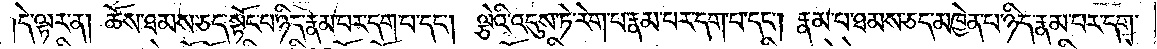དེ་ལྟར་ན། ཆོས་ཐམས་ཅད་སྟོང་པ་ཉིད་རྣམ་པར་དག་པ་དང༌། ལྕེའི་འདུས་ཏེ་རེག་པ་རྣམ་པར་དག་པ་དང༌། རྣམ་པ་ཐམས་ཅད་མཁྱེན་པ་ཉིད་རྣམ་པར་དག་
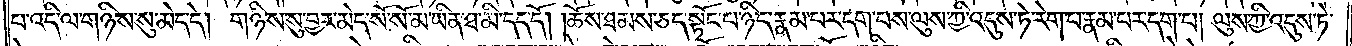པ་འདི་ལ་གཉིས་སུ་མེད་དེ། གཉིས་སུ་བྱར་མེད་སོ་སོ་མ་ཡིན་ཐ་མི་དད་དོ། །ཆོས་ཐམས་ཅད་སྟོང་པ་ཉིད་རྣམ་པར་དག་པས་ལུས་ཀྱི་འདུས་ཏེ་རེག་པ་རྣམ་པར་དག་པ། ལུས་ཀྱི་འདུས་ཏེ་
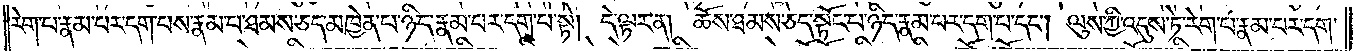རེག་པ་རྣམ་པར་དག་པས་རྣམ་པ་ཐམས་ཅད་མཁྱེན་པ་ཉིད་རྣམ་པར་དག་པ་སྟེ། དེ་ལྟར་ན། ཆོས་ཐམས་ཅད་སྟོང་པ་ཉིད་རྣམ་པར་དག་པ་དང༌། ལུས་ཀྱི་འདུས་ཏེ་རེག་པ་རྣམ་པར་དག་
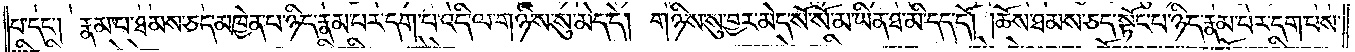པ་དང༌། རྣམ་པ་ཐམས་ཅད་མཁྱེན་པ་ཉིད་རྣམ་པར་དག་པ་འདི་ལ་གཉིས་སུ་མེད་དེ། གཉིས་སུ་བྱར་མེད་སོ་སོ་མ་ཡིན་ཐ་མི་དད་དོ། །ཆོས་ཐམས་ཅད་སྟོང་པ་ཉིད་རྣམ་པར་དག་པས་
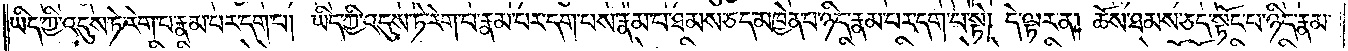ཡིད་ཀྱི་འདུས་ཏེ་རེག་པ་རྣམ་པར་དག་པ། ཡིད་ཀྱི་འདུས་ཏེ་རེག་པ་རྣམ་པར་དག་པས་རྣམ་པ་ཐམས་ཅད་མཁྱེན་པ་ཉིད་རྣམ་པར་དག་པ་སྟེ། དེ་ལྟར་ན། ཆོས་ཐམས་ཅད་སྟོང་པ་ཉིད་རྣམ་
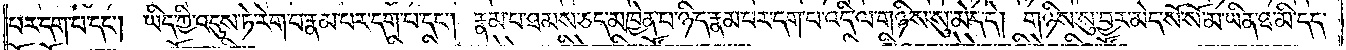པར་དག་པ་དང༌། ཡིད་ཀྱི་འདུས་ཏེ་རེག་པ་རྣམ་པར་དག་པ་དང༌། རྣམ་པ་ཐམས་ཅད་མཁྱེན་པ་ཉིད་རྣམ་པར་དག་པ་འདི་ལ་གཉིས་སུ་མེད་དེ། གཉིས་སུ་བྱར་མེད་སོ་སོ་མ་ཡིན་ཐ་མི་དད་
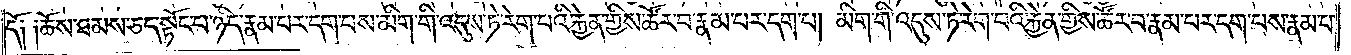དོ༑ ༑ཆོས་ཐམས་ཅད་སྟོང་པ་ཉིད་རྣམ་པར་དག་པས་མིག་གི་འདུས་ཏེ་རེག་པའི་རྐྱེན་གྱིས་ཚོར་བ་རྣམ་པར་དག་པ། མིག་གི་འདུས་ཏེ་རེག་པའི་རྐྱེན་གྱིས་ཚོར་བ་རྣམ་པར་དག་པས་རྣམ་པ་
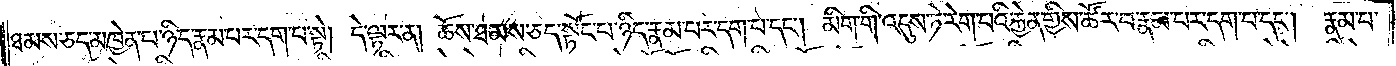ཐམས་ཅད་མཁྱེན་པ་ཉིད་རྣམ་པར་དག་པ་སྟེ། དེ་ལྟར་ན། ཆོས་ཐམས་ཅད་སྟོང་པ་ཉིད་རྣམ་པར་དག་པ་དང༌། མིག་གི་འདུས་ཏེ་རེག་པའི་རྐྱེན་གྱིས་ཚོར་བ་རྣམ་པར་དག་པ་དང༌། རྣམ་པ་
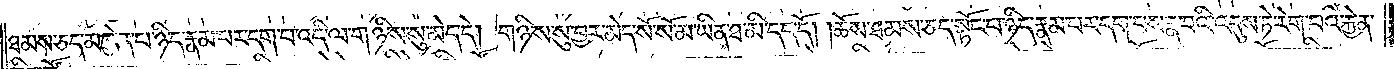ཐམས་ཅད་མཁྱེན་པ་ཉིད་རྣམ་པར་དག་པ་འདི་ལ་གཉིས་སུ་མེད་དེ། གཉིས་སུ་བྱར་མེད་སོ་སོ་མ་ཡིན་ཐ་མི་དད་དོ། །ཆོས་ཐམས་ཅད་སྟོང་པ་ཉིད་རྣམ་པར་དག་པས་རྣ་བའི་འདུས་ཏེ་རེག་པའི་རྐྱེན་
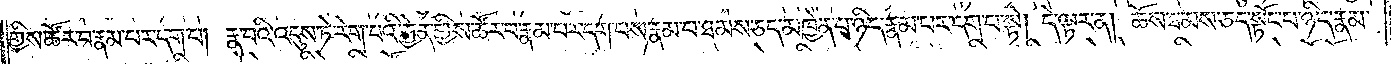གྱིས་ཚོར་བ་རྣམ་པར་དག་པ། རྣ་བའི་འདུས་ཏེ་རེག་པའི་རྐྱེན་གྱིས་ཚོར་བ་རྣམ་པར་དག་པས་རྣམ་པ་ཐམས་ཅད་མཁྱེན་པ་ཉིད་རྣམ་པར་དག་པ་སྟེ། དེ་ལྟར་ན། ཆོས་ཐམས་ཅད་སྟོང་པ་ཉིད་རྣམ་
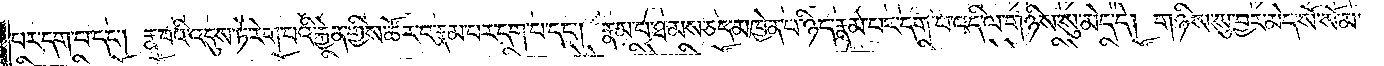པར་དག་པ་དང༌། རྣ་བའི་འདུས་ཏེ་རེག་པའི་རྐྱེན་གྱིས་ཚོར་བ་རྣམ་པར་དག་པ་དང༌། རྣམ་པ་ཐམས་ཅད་མཁྱེན་པ་ཉིད་རྣམ་པར་དག་པ་འདི་ལ་གཉིས་སུ་མེད་དེ། གཉིས་སུ་བྱར་མེད་སོ་སོ་མ་
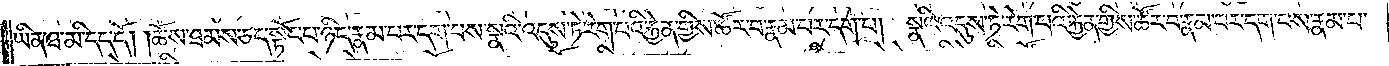ཡིན་ཐ་མི་དད་དོ། །ཆོས་ཐམས་ཅད་སྟོང་པ་ཉིད་རྣམ་པར་དག་པས་སྣའི་འདུས་ཏེ་རེག་པའི་རྐྱེན་གྱིས་ཚོར་བ་རྣམ་པར་དག་པ། སྣའི་འདུས་ཏེ་རེག་པའི་རྐྱེན་གྱིས་ཚོར་བ་རྣམ་པར་དག་པས་རྣམ་པ་
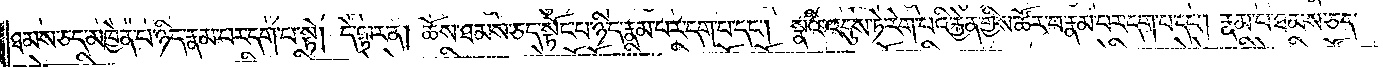ཐམས་ཅད་མཁྱེན་པ་ཉིད་རྣམ་པར་དག་པ་སྟེ། དེ་ལྟར་ན། ཆོས་ཐམས་ཅད་སྟོང་པ་ཉིད་རྣམ་པར་དག་པ་དང༌། སྣའི་འདུས་ཏེ་རེག་པའི་རྐྱེན་གྱིས་ཚོར་བ་རྣམ་པར་དག་པ་དང༌། རྣམ་པ་ཐམས་ཅད་
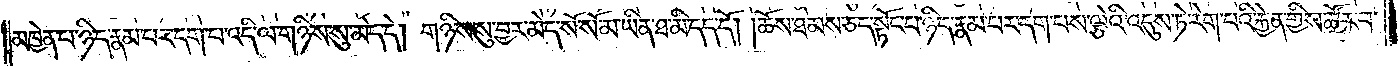མཁྱེན་པ་ཉིད་རྣམ་པར་དག་པ་འདི་ལ་གཉིས་སུ་མེད་དེ། གཉིས་སུ་བྱར་མེད་སོ་སོ་མ་ཡིན་ཐ་མི་དད་དོ། །ཆོས་ཐམས་ཅད་སྟོང་པ་ཉིད་རྣམ་པར་དག་པས་ལྕེའི་འདུས་ཏེ་རེག་བའི་རྐྱེན་གྱིས་ཚོར་བ་
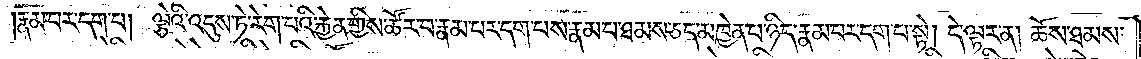རྣམ་པར་དག་པ། ལྕེའི་འདུས་ཏེ་རེག་པའི་རྐྱེན་གྱིས་ཚོར་བ་རྣམ་པར་དག་པས་རྣམ་པ་ཐམས་ཅད་མཁྱེན་པ་ཉིད་རྣམ་པར་དག་པ་སྟེ། དེ་ལྟར་ན། ཆོས་ཐམས་
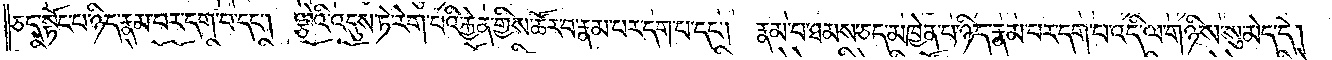ཅད་སྟོང་པ་ཉིད་རྣམ་པར་དག་པ་དང༌། ལྕེའི་འདུས་ཏེ་རེག་པའི་རྐྱེན་གྱིས་ཚོར་བ་རྣམ་པར་དག་པ་དང༌། རྣམ་པ་ཐམས་ཅད་མཁྱེན་པ་ཉིད་རྣམ་པར་དག་པ་འདི་ལ་གཉིས་སུ་མེད་དེ།
